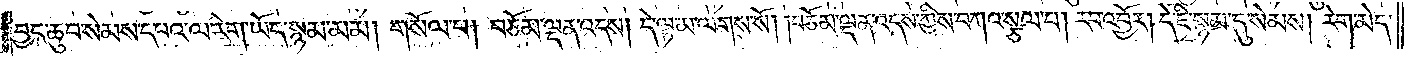བྱང་ཆུབ་སེམས་དཔའ་ལ་རེག་ཡོད་སྙམ་མམ། གསོལ་པ། བཅོམ་ལྡན་འདས། དེ་ལྟ་མ་ལགས་སོ། །བཅོམ་ལྡན་འདས་ཀྱིས་བཀའ་སྩལ་པ། རབ་འབྱོར། དེ་ཇི་སྙམ་དུ་སེམས། རེག་མེད་
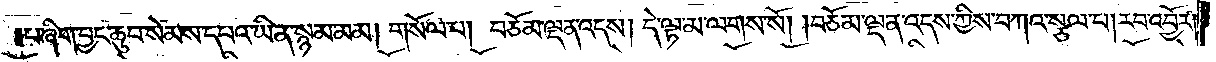པ་ཞིག་བྱང་ཆུབ་སེམས་དཔའ་ཡིན་སྙམ་མམ། གསོལ་པ། བཅོམ་ལྡན་འདས། དེ་ལྟ་མ་ལགས་སོ། །བཅོམ་ལྡན་འདས་ཀྱིས་བཀའ་སྩལ་པ། རབ་འབྱོར།
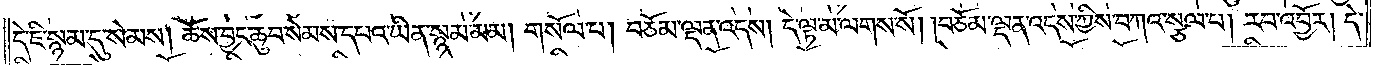དེ་ཇི་སྙམ་དུ་སེམས། ཆོས་བྱང་ཆུབ་སེམས་དཔའ་ཡིན་སྙམ་མམ། གསོལ་པ། བཅོམ་ལྡན་འདས། དེ་ལྟ་མ་ལགས་སོ། །བཅོམ་ལྡན་འདས་ཀྱིས་བཀའ་སྩལ་པ། རབ་འབྱོར། དེ་
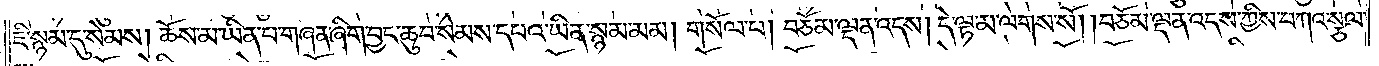ཇི་སྙམ་དུ་སེམས། ཆོས་མ་ཡིན་པ་གཞན་ཞིག་བྱང་ཆུབ་སེམས་དཔའ་ཡིན་སྙམ་མམ། གསོལ་པ། བཅོམ་ལྡན་འདས། དེ་ལྟ་མ་ལགས་སོ། །བཅོམ་ལྡན་འདས་ཀྱིས་བཀའ་སྩལ་
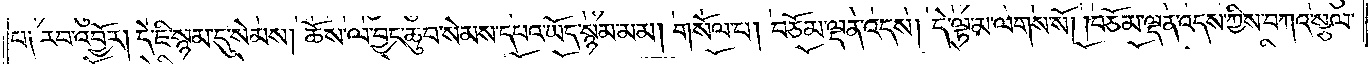པ༑ རབ་འབྱོར། དེ་ཇི་སྙམ་དུ་སེམས། ཆོས་ལ་བྱང་ཆུབ་སེམས་དཔའ་ཡོད་སྙམ་མམ། གསོལ་པ། བཅོམ་ལྡན་འདས། དེ་ལྟ་མ་ལགས་སོ། །བཅོམ་ལྡན་འདས་ཀྱིས་བཀའ་སྩལ་
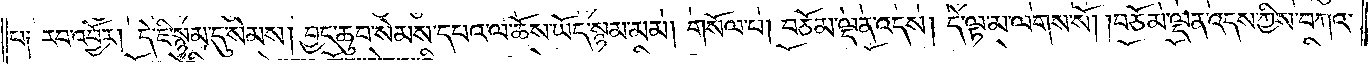པ༑ རབ་འབྱོར། དེ་ཇི་སྙམ་དུ་སེམས། བྱང་ཆུབ་སེམས་དཔའ་ལ་ཆོས་ཡོད་སྙམ་མམ། གསོལ་པ། བཅོམ་ལྡན་འདས། དེ་ལྟ་མ་ལགས་སོ། །བཅོམ་ལྡན་འདས་ཀྱིས་བཀའ་
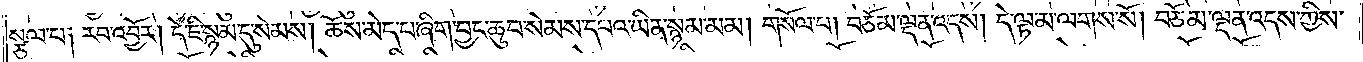སྩལ་པ༑ རབ་འབྱོར། དེ་ཇི་སྙམ་དུ་སེམས། ཆོས་མེད་པ་ཞིག་བྱང་ཆུབ་སེམས་དཔའ་ཡིན་སྙམ་མམ། གསོལ་པ། བཅོམ་ལྡན་འདས། དེ་ལྟ་མ་ལགས་སོ། །བཅོམ་ལྡན་འདས་ཀྱིས་
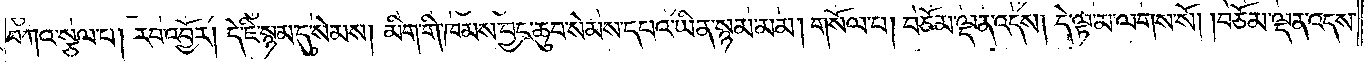བཀའ་སྩལ་པ། རབ་འབྱོར། དེ་ཇི་སྙམ་དུ་སེམས། མིག་གི་ཁམས་བྱང་ཆུབ་སེམས་དཔའ་ཡིན་སྙམ་མམ། གསོལ་པ། བཅོམ་ལྡན་འདས། དེ་ལྟ་མ་ལགས་སོ། །བཅོམ་ལྡན་འདས་
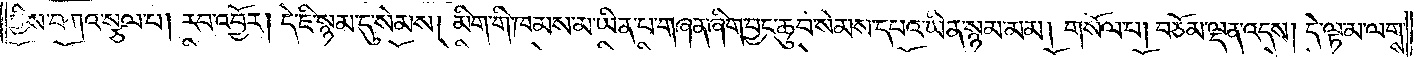ཀྱིས་བཀའ་སྩལ་པ། རབ་འབྱོར། དེ་ཇི་སྙམ་དུ་སེམས། མིག་གི་ཁམས་མ་ཡིན་པ་གཞན་ཞིག་བྱང་ཆུབ་སེམས་དཔའ་ཡིན་སྙམ་མམ། གསོལ་པ། བཅོམ་ལྡན་འདས། དེ་ལྟ་མ་ལགས་
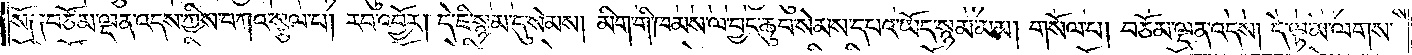སོ༑ ༑བཅོམ་ལྡན་འདས་ཀྱིས་བཀའ་སྩལ་པ། རབ་འབྱོར། དེ་ཇི་སྙམ་དུ་སེམས། མིག་གི་ཁམས་ལ་བྱང་ཆུབ་སེམས་དཔའ་ཡོད་སྙམ་མམ། གསོལ་པ། བཅོམ་ལྡན་འདས། དེ་ལྟ་མ་ལགས་
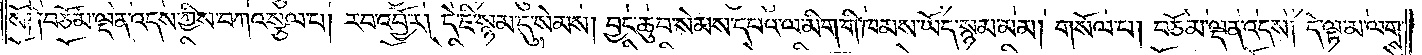སོ༑ ༑བཅོམ་ལྡན་འདས་ཀྱིས་བཀའ་སྩལ་པ། རབ་འབྱོར། དེ་ཇི་སྙམ་དུ་སེམས། བྱང་ཆུབ་སེམས་དཔའ་ལ་མིག་གི་ཁམས་ཡོད་སྙམ་མམ། གསོལ་པ། བཅོམ་ལྡན་འདས། དེ་ལྟ་མ་ལགས་
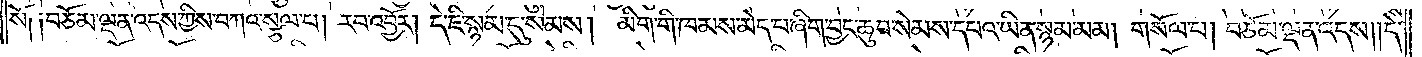སོ༑ ༑བཅོམ་ལྡན་འདས་ཀྱིས་བཀའ་སྩལ་པ། རབ་འབྱོར། དེ་ཇི་སྙམ་དུ་སེམས། མིག་གི་ཁམས་མེད་པ་ཞིག་བྱང་ཆུབ་སེམས་དཔའ་ཡིན་སྙམ་མམ། གསོལ་པ། བཅོམ་ལྡན་འདས། །དེ་
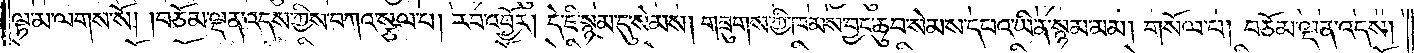ལྟ་མ་ལགས་སོ། །བཅོམ་ལྡན་འདས་ཀྱིས་བཀའ་སྩལ་པ། རབ་འབྱོར། དེ་ཇི་སྙམ་དུ་སེམས། གཟུགས་ཀྱི་ཁམས་བྱང་ཆུབ་སེམས་དཔའ་ཡིན་སྙམ་མམ། གསོལ་པ། བཅོམ་ལྡན་འདས།
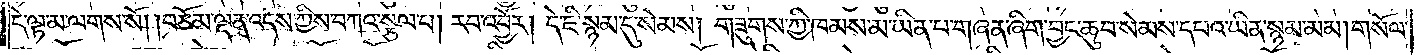དེ་ལྟ་མ་ལགས་སོ། །བཅོམ་ལྡན་འདས་ཀྱིས་བཀའ་སྩལ་པ། རབ་འབྱོར། དེ་ཇི་སྙམ་དུ་སེམས། གཟུགས་ཀྱི་ཁམས་མ་ཡིན་པ་གཞན་ཞིག་བྱང་ཆུབ་སེམས་དཔའ་ཡིན་སྙམ་མམ། གསོལ་
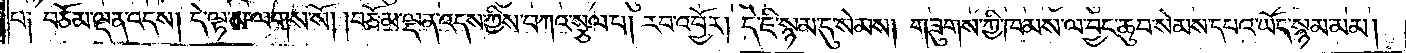པ༑ བཅོམ་ལྡན་འདས། དེ་ལྟ་མ་ལགས་སོ། །བཅོམ་ལྡན་འདས་ཀྱིས་བཀའ་སྩལ་པ། རབ་འབྱོར། དེ་ཇི་སྙམ་དུ་སེམས། གཟུགས་ཀྱི་ཁམས་ལ་བྱང་ཆུབ་སེམས་དཔའ་ཡོད་སྙམ་མམ།
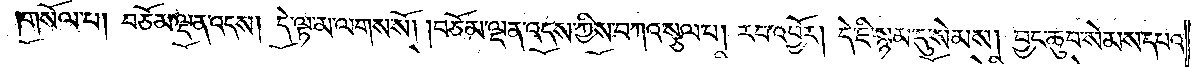གསོལ་པ། བཅོམ་ལྡན་འདས། དེ་ལྟ་མ་ལགས་སོ། །བཅོམ་ལྡན་འདས་ཀྱིས་བཀའ་སྩལ་པ། རབ་འབྱོར། དེ་ཇི་སྙམ་དུ་སེམས། བྱང་ཆུབ་སེམས་དཔའ་
